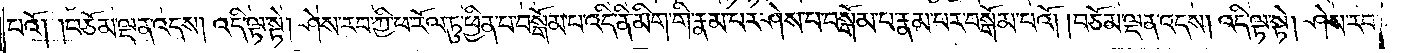པའོ། །བཅོམ་ལྡན་འདས། འདི་ལྟ་སྟེ། ཤེས་རབ་ཀྱི་ཕ་རོལ་ཏུ་ཕྱིན་པ་བསྒོམ་པ་འདི་ནི་མིག་གི་རྣམ་པར་ཤེས་པ་བསྒོམ་པ་རྣམ་པར་བསྒོམ་པའོ། །བཅོམ་ལྡན་འདས། འདི་ལྟ་སྟེ། ཤེས་རབ་
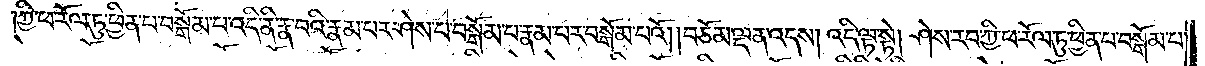ཀྱི་ཕ་རོལ་ཏུ་ཕྱིན་པ་བསྒོམ་པ་འདི་ནི་རྣ་བའི་རྣམ་པར་ཤེས་པ་བསྒོམ་པ་རྣམ་པར་བསྒོམ་པའོ། །བཅོམ་ལྡན་འདས། འདི་ལྟ་སྟེ། ཤེས་རབ་ཀྱི་ཕ་རོལ་ཏུ་ཕྱིན་པ་བསྒོམ་པ་
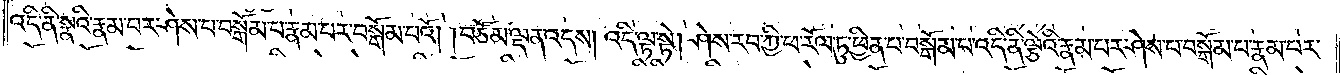འདི་ནི་སྣའི་རྣམ་པར་ཤེས་པ་བསྒོམ་པ་རྣམ་པར་བསྒོམ་པའོ། །བཅོམ་ལྡན་འདས། འདི་ལྟ་སྟེ། ཤེས་རབ་ཀྱི་ཕ་རོལ་ཏུ་ཕྱིན་པ་བསྒོམ་པ་འདི་ནི་ལྕེའི་རྣམ་པར་ཤེས་པ་བསྒོམ་པ་རྣམ་པར་
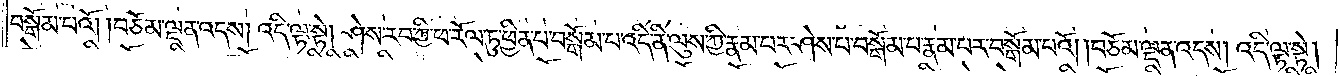བསྒོམ་པའོ། །བཅོམ་ལྡན་འདས། འདི་ལྟ་སྟེ། ཤེས་རབ་ཀྱི་ཕ་རོལ་ཏུ་ཕྱིན་པ་བསྒོམ་པ་འདི་ནི་ལུས་ཀྱི་རྣམ་པར་ཤེས་པ་བསྒོམ་པ་རྣམ་པར་བསྒོམ་པའོ། །བཅོམ་ལྡན་འདས། འདི་ལྟ་སྟེ།
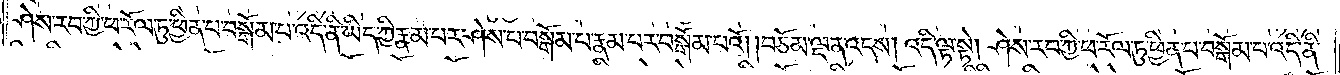ཤེས་རབ་ཀྱི་ཕ་རོལ་ཏུ་ཕྱིན་པ་བསྒོམ་པ་འདི་ནི་ཡིད་ཀྱི་རྣམ་པར་ཤེས་པ་བསྒོམ་པ་རྣམ་པར་བསྒོམ་པའོ། །བཅོམ་ལྡན་འདས། འདི་ལྟ་སྟེ། ཤེས་རབ་ཀྱི་ཕ་རོལ་ཏུ་ཕྱིན་པ་བསྒོམ་པ་འདི་ནི་
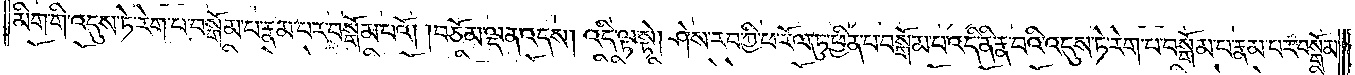མིག་གི་འདུས་ཏེ་རེག་པ་བསྒོམ་པ་རྣམ་པར་བསྒོམ་པའོ། །བཅོམ་ལྡན་འདས། འདི་ལྟ་སྟེ། ཤེས་རབ་ཀྱི་ཕ་རོལ་ཏུ་ཕྱིན་པ་བསྒོམ་པ་འདི་ནི་རྣ་བའི་འདུས་ཏེ་རེག་པ་བསྒོམ་པ་རྣམ་པར་བསྒོམ་
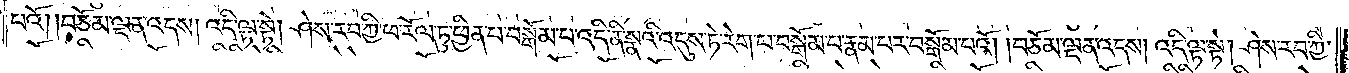པའོ། །བཅོམ་ལྡན་འདས། འདི་ལྟ་སྟེ། ཤེས་རབ་ཀྱི་ཕ་རོལ་ཏུ་ཕྱིན་པ་བསྒོམ་པ་འདི་ནི་སྣའི་འདུས་ཏེ་རེག་པ་བསྒོམ་པ་རྣམ་པར་བསྒོམ་པའོ། །བཅོམ་ལྡན་འདས། འདི་ལྟ་སྟེ། ཤེས་རབ་ཀྱི་
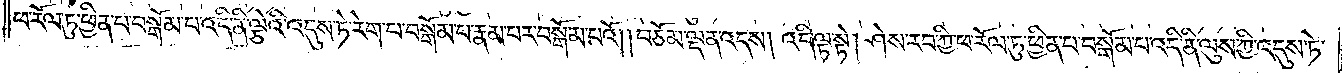ཕ་རོལ་ཏུ་ཕྱིན་པ་བསྒོམ་པ་འདི་ནི་ལྕེའི་འདུས་ཏེ་རེག་པ་བསྒོམ་པ་རྣམ་པར་བསྒོམ་པའོ། །བཅོམ་ལྡན་འདས། འདི་ལྟ་སྟེ། ཤེས་རབ་ཀྱི་ཕ་རོལ་ཏུ་ཕྱིན་པ་བསྒོམ་པ་འདི་ནི་ལུས་ཀྱི་འདུས་ ཏེ་
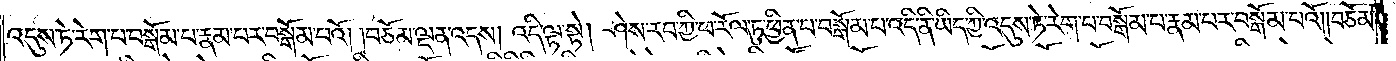འདུས་ཏེ་རེག་པ་བསྒོམ་པ་རྣམ་པར་བསྒོམ་པའོ། །བཅོམ་ལྡན་འདས། འདི་ལྟ་སྟེ། ཤེས་རབ་ཀྱི་ཕ་རོལ་ཏུ་ཕྱིན་པ་བསྒོམ་པ་འདི་ནི་ཡིད་ཀྱི་འདུས་ཏེ་རེག་པ་བསྒོམ་པ་རྣམ་པར་བསྒོམ་པའོ། །བཅོམ་
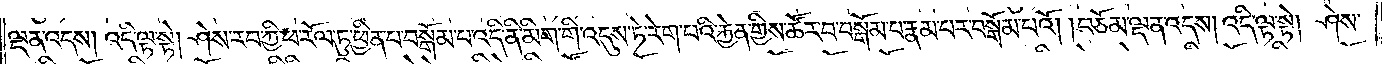ལྡན་འདས། འདི་ལྟ་སྟེ། ཤེས་རབ་ཀྱི་ཕ་རོལ་ཏུ་ཕྱིན་པ་བསྒོམ་པ་འདི་ནི་མིག་གི་འདུས་ཏེ་རེག་པའི་རྐྱེན་གྱིས་ཚོར་བ་བསྒོམ་པ་རྣམ་པར་བསྒོམ་པའོ། །བཅོམ་ལྡན་འདས། འདི་ལྟ་སྟེ། ཤེས་
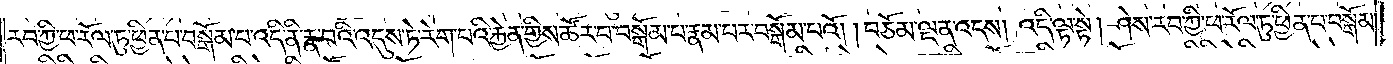རབ་ཀྱི་ཕ་རོལ་ཏུ་ཕྱིན་པ་བསྒོམ་པ་འདི་ནི་རྣ་བའི་འདུས་ཏེ་རེག་པའི་རྐྱེན་གྱིས་ཚོར་བ་བསྒོམ་པ་རྣམ་པར་བསྒོམ་པའོ། །བཅོམ་ལྡན་འདས། འདི་ལྟ་སྟེ། ཤེས་རབ་ཀྱི་ཕ་རོལ་ཏུ་ཕྱིན་པ་བསྒོམ་
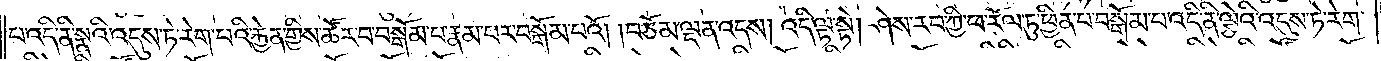པ་འདི་ནི་སྣའི་འདུས་ཏེ་རེག་པའི་རྐྱེན་གྱིས་ཚོར་བ་བསྒོམ་པ་རྣམ་པར་བསྒོམ་པའོ། །བཅོམ་ལྡན་འདས། འདི་ལྟ་སྟེ། ཤེས་རབ་ཀྱི་ཕ་རོལ་ཏུ་ཕྱིན་པ་བསྒོམ་པ་འདི་ནི་ལྕེའི་འདུས་ཏེ་རེག་
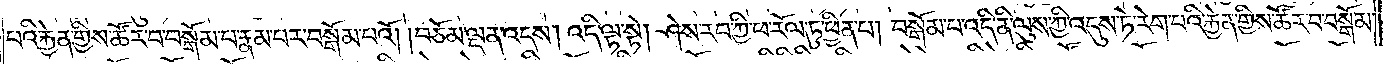པའི་རྐྱེན་གྱིས་ཚོར་བ་བསྒོམ་པ་རྣམ་པར་བསྒོམ་པའོ། །བཅོམ་ལྡན་འདས། འདི་ལྟ་སྟེ། ཤེས་རབ་ཀྱི་ཕ་རོལ་ཏུ་ཕྱིན་པ། བསྒོམ་པ་འདི་ནི་ལུས་ཀྱི་འདུས་ཏེ་རེག་པའི་རྐྱེན་གྱིས་ཚོར་བ་བསྒོམ་
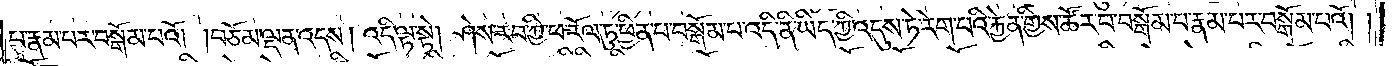པ་རྣམ་པར་བསྒོམ་པའོ། །བཅོམ་ལྡན་འདས། འདི་ལྟ་སྟེ། ཤེས་རབ་ཀྱི་ཕ་རོལ་ཏུ་ཕྱིན་པ་བསྒོམ་པ་འདི་ནི་ཡིད་ཀྱི་འདུས་ཏེ་རེག་པའི་རྐྱེན་གྱིས་ཚོར་བ་བསྒོམ་པ་རྣམ་པར་བསྒོམ་པའོ། །
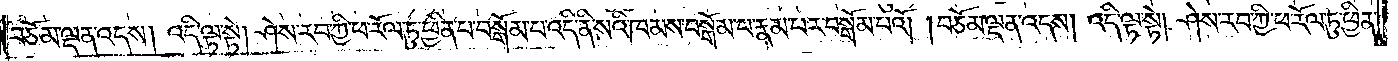བཅོམ་ལྡན་འདས། འདི་ལྟ་སྟེ། ཤེས་རབ་ཀྱི་ཕ་རོལ་ཏུ་ཕྱིན་པ་བསྒོམ་པ་འདི་ནི་སའི་ཁམས་བསྒོམ་པ་རྣམ་པར་བསྒོམ་པའོ། །བཅོམ་ལྡན་འདས། འདི་ལྟ་སྟེ། ཤེས་རབ་ཀྱི་ཕ་རོལ་ཏུ་ཕྱིན་
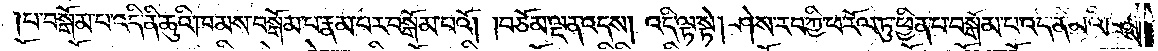པ་བསྒོམ་པ་འདི་ནི་ཆུའི་ཁམས་བསྒོམ་པ་རྣམ་པར་བསྒོམ་པའོ། །བཅོམ་ལྡན་འདས། འདི་ལྟ་སྟེ། ཤེས་རབ་ཀྱི་ཕ་རོལ་ཏུ་ཕྱིན་པ་བསྒོམ་པ་འདི་ནི་མེའི་ཁམས་
